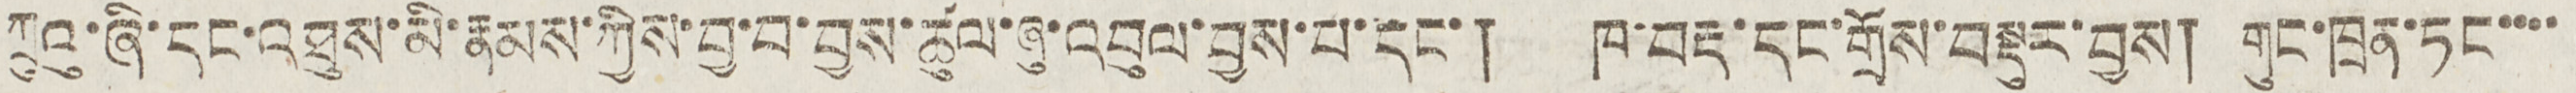ཀྲུའུ་ཞི་དང་འཐུས་མི་རྣམས་ཀྱིས་བྱ་བ་བྱས་ཚུལ་ཞུ་འབུལ་བྱས་པ་དང་། ཁ་བརྡ་དང་གྲོས་བསྡུར་བྱས། གུང་ཁྲན་ཏང་་་་
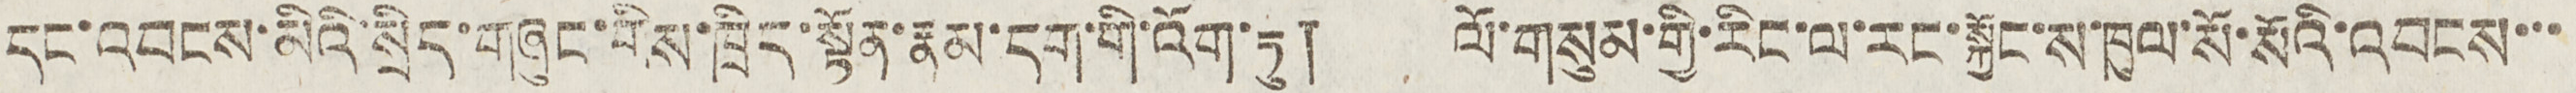དང་འབངས་མིའི་སྲིད་གཞུང་གིས་ཁྲིད་སྟོན་རྣམ་དག་གི་འོག་ཏུ། ལོ་གསུམ་གྱི་རིང་ལ་རང་སྐྱོང་ས་ཁུལ་སོ་སོའི་འབངས་་་
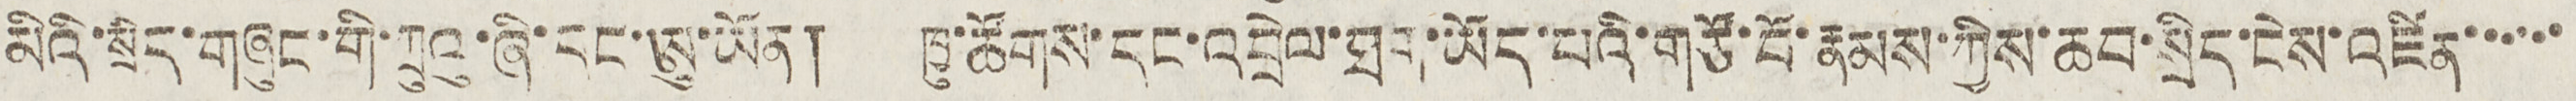མིའི་སྲིད་གཞུང་གི་ཀྲུའུ་ཞི་དང་ཨུ་ཡོན། ཁྱུ་ཚོགས་དང་འབྲེལ་ཐག་ཡོད་པའི་གཙོ་བོ་རྣམས་ཀྱིས་ཆབ་སྲིད་ངེས་འཛིན་་་་་་
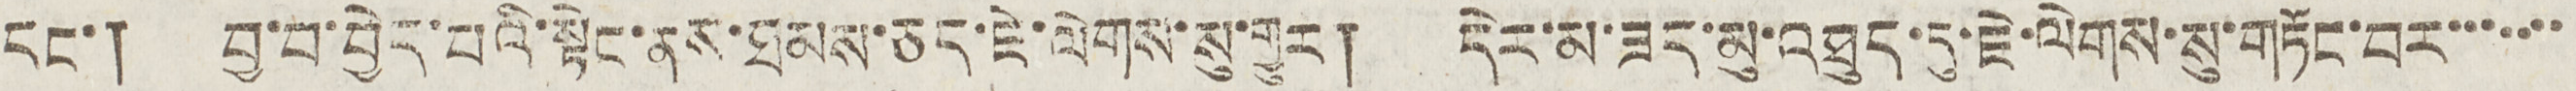དང་། བྱ་བ་བྱེད་པའི་སྟེང་ནས་ཐམས་ཅད་ཇེ་ལེགས་སུ་གྱུར། དེར་མ་ཟད་མུ་འཐུད་དུ་ཇེ་ལེགས་སུ་གཏོང་བར་་་་་་་
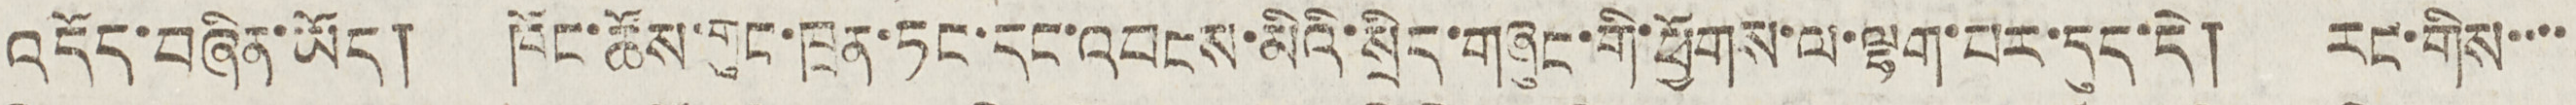འདོད་བཞིན་ཡོད། ཁོང་ཚོས་གུང་ཁྲན་ཏང་དང་འབངས་མིའི་སྲིད་གཞུང་གི་ཕྱོགས་ལྷག་པར་དུད་དེ། རང་གིས་་་་
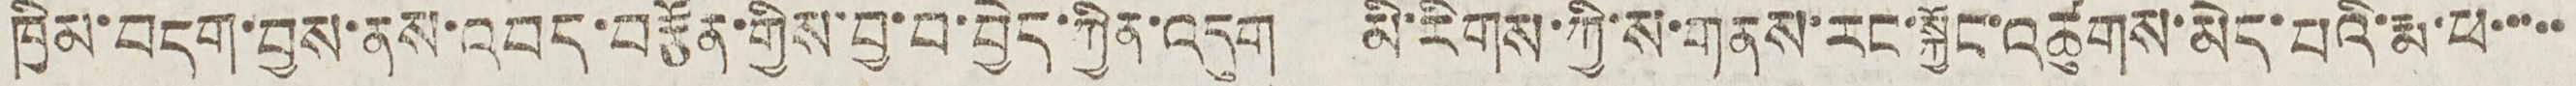ཁྱིམ་བདག་བྱས་ནས་འབད་བརྩོན་གྱིས་བྱ་བ་བྱེད་ཀྱིན་འདུག མི་རིགས་ཀྱི་ས་གནས་རང་སྐྱོང་འཚུགས་མེད་པའི་རྨ་ཕ་་་་་
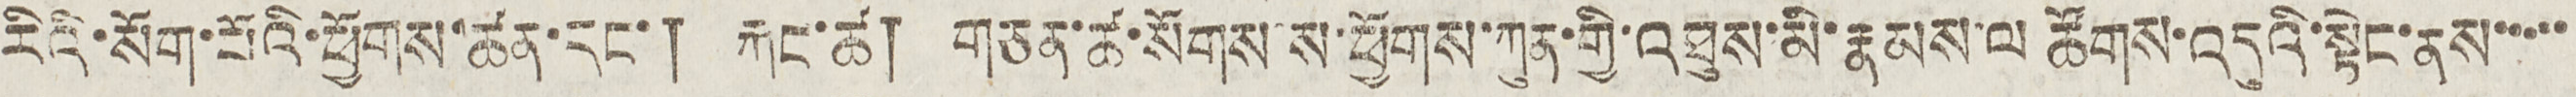རིའི་སོག་པོའི་ཕྱོགས་ཚན་དང་། རྐང་ཚ། གཅན་ཚ་སོགས་ས་ཕྱོགས་ཀུན་གྱི་འཐུས་མི་རྣམས་ལ ཚོགས་འདུའི་སྟེང་ནས་་་་་
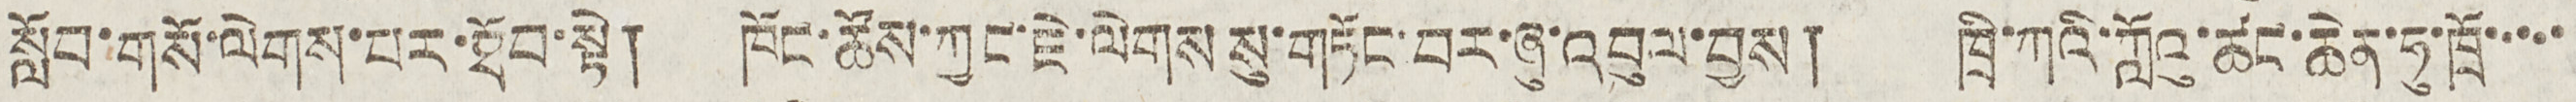སློབ་གསོ་ལེགས་པར་ཐོབ་སྟེ། ཁོང་ཚོས་ཀྱང་ཇེ་ལེགས སུ་གཏོང་བར་ཞུ་འབུལ་བྱས། ཁྲི་ཀའི་ཀློའུ་ཚང་ཆེན་ཧུ་ཁྲོ་་་་་
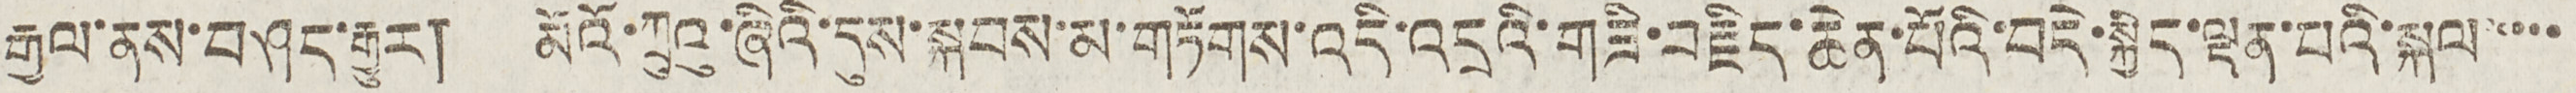རྒྱལ་ནས་བཤད་རྒྱུར། མོའོ་ཀྲུའུ་ཞིའི་དུས་སྐབས་མ་གཏོགས་འདི་འདྲའི་གཟི་བརྗིད་ཆེན་པོའི་བདེ་སྐྱིད་ལྡན་པའི་སྐལ་་་་་
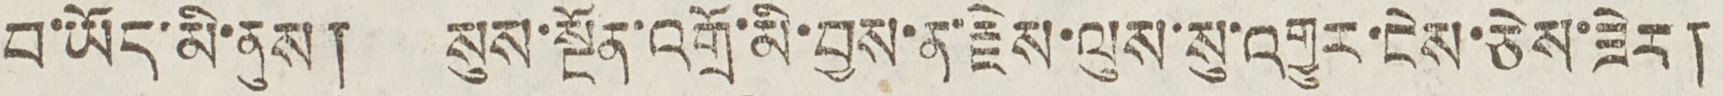བ་ཡོད་མི་ནུས། སུས་སྔོན་འགྲོ་མི་བྱས་ན་རྗེས་ལུས་སུ་འགྱུར་ངེས་ཅེས་ཟེར།
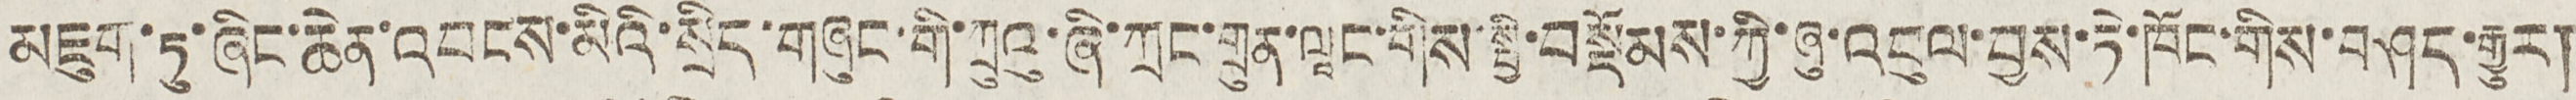མཇུག་ཏུ་ཞིང་ཆེན་འབངས་མིའི་སྲིད་གཞུང་གི་ཀྲུའུ་ཞི་ཀྲང་གྲུན་ལཱང་གིས་སྤྱི་བསྡོམས་ཀྱི་ཞུ་འབུལ་བྱས་ཏེ་ཁོང་གིས་བཤད་རྒྱུར།
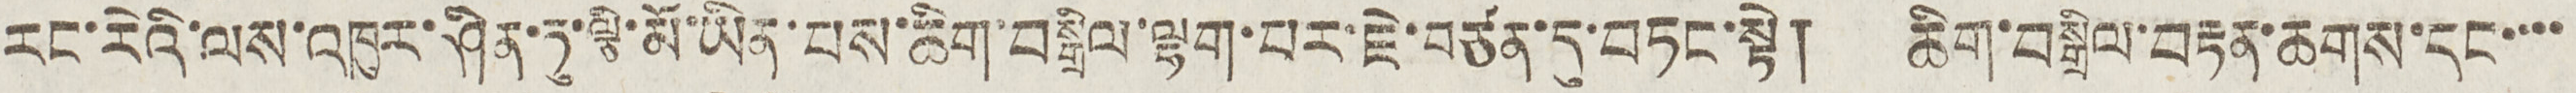རང་རེའི་ལས་འཁུར་ཤིན་ཏུ་ལྕི་མོ་ཡིན་པས་ཆིག་བསྒྲིལ་ལྷག་པར་ཇེ་བཙན་དུ་བཏང་སྟེ། ཆིག་བསྒྲིལ་བརྟན་ཆགས་དང་་་་
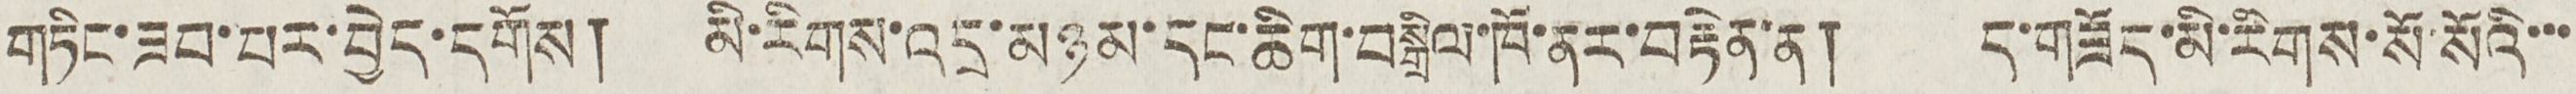གཏིང་ཟབ་པར་བྱེད་དགོས། མི་རིགས་འདྲ་མཉམ་དང་ཆིག་བསྒྲིལ་ཁོ་ནར་བརྟེན་ན། ད་གཟོད་མི་རིགས་སོ་སོའི་་་
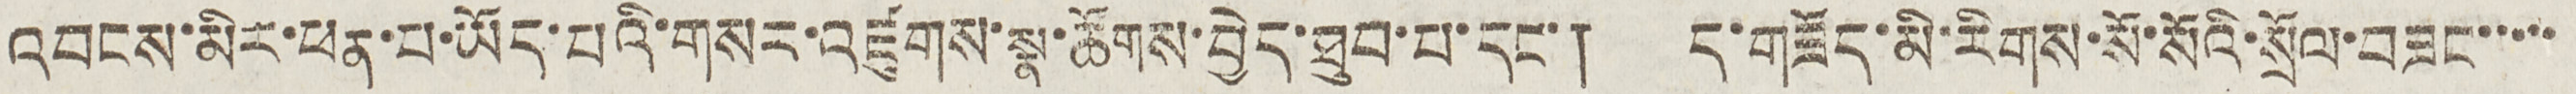འབངས་མིར་ཕན་པ་ཡོད་པའི་གསར་འཛུགས་སྣ་ཚོགས་བྱེད་ཐུབ་པ་དང་། ད་གཟོད་མི་རིགས་སོ་སོའི་སྲོལ་བཟང་་་་་
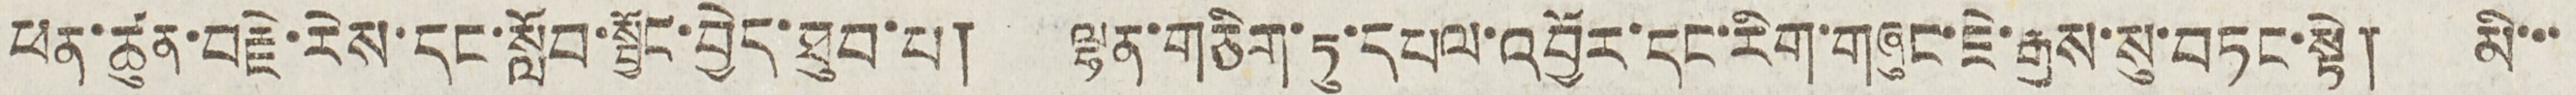ཕན་ཚུན་བརྗེ་རེས་དང་སློབ་སྦྱོང་བྱེད་ཐུབ་པ། ལྷན་གཅིག་ཏུ་དཔལ་འབྱོར་དང་རིག་གཞུང་ཇེ་རྒྱས་སུ་བཏང་སྟེ། མི་་་
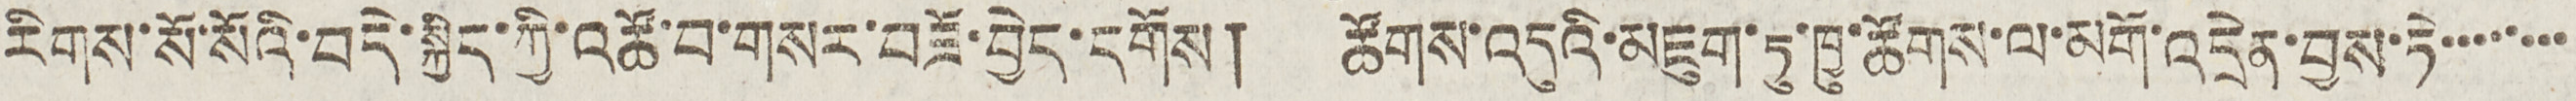རིགས་སོ་སོའི་བདེ་སྐྱིད་ཀྱི་འཚོ་བ་གསར་བཟོ་བྱེད་དགོས། ཚོགས་འདུའི་མཇུག་ཏུ་ཁྱུ་ཚོགས་ལ་མགོ་འདྲེན་བྱས་ཏེ་་་་་་་་
